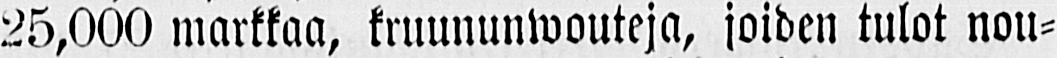25.000 markkaa, kruununwouteja, joiden tulot nou-
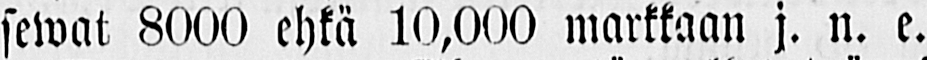sewat 8000 ehkä 10,000 markkaan j. n. e.
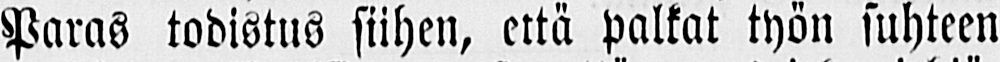Paras todistus siihen, että palkat työn suhteen
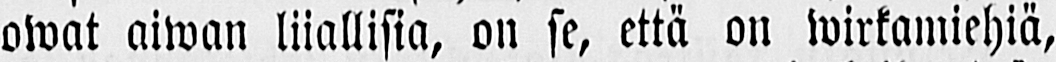owat aiwan liiallisia, on se, että on wirkamiehiä,
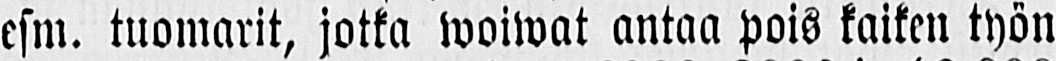esm. tuomarit, jotka woiwat antaa pois kaiken työn
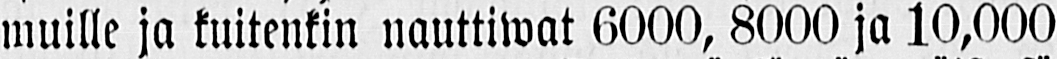muille ja kuitenkin nauttiwat 6000, 8000 ja 10,000
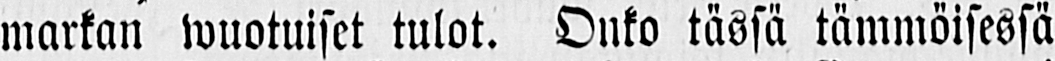markan wuotuiset tulot. Onko tässä tämmöisessä
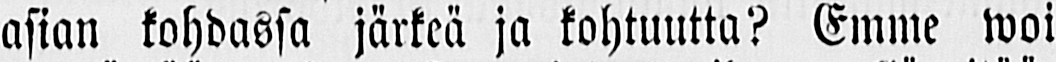asian kohdassa järkeä ja kohtuutta? Emme woi
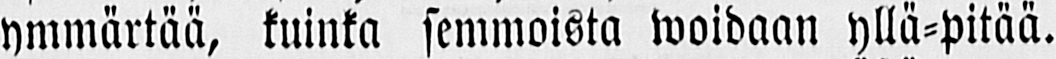ymmärtää, kuinka semmoista woidaan yllä-pitää.
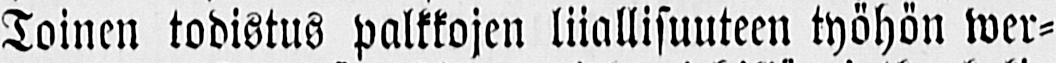Toinen todistus palkkojen liiallisuuteen työhön wer-
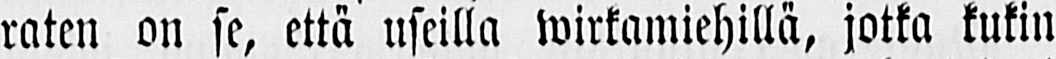raten on se, että useilla wirkamiehillä, jotka kukin
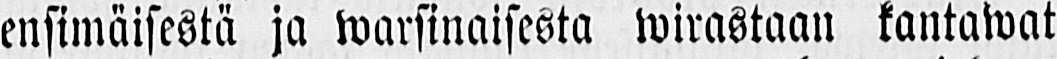ensimäisestä ja warsinaisesta wirastaan kantawat
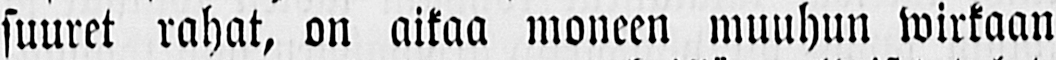suuret rahat, on aikaa moneen muuhun wirkaan
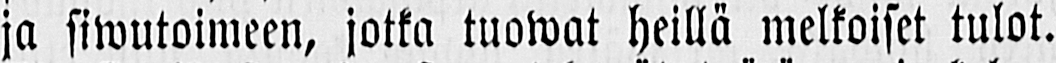ja siwutoimeen, jotka tuowat heillä melkoiset tulot.
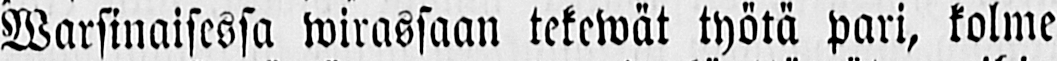Warsinaisessa wirassaan tekewät työtä pari, kolme
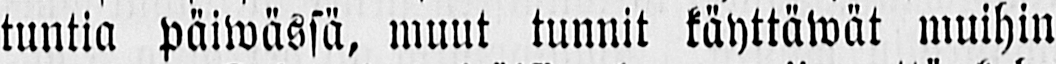tuntia päiwässä, muut tunnit käyttäwät muihin
